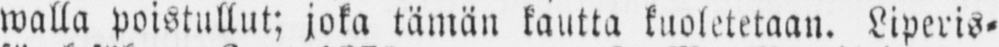walla poistullut; joka tämän kautta kuoletetaan. Liperis-
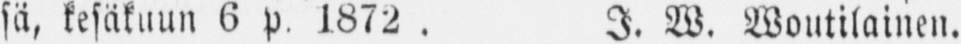sä, kesäkuun 6 p. 1872 . I. W. Woutilainen.
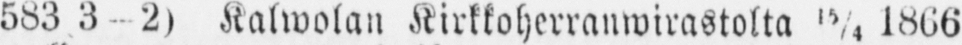583 (3-2) Kalwolan Kirkkoherranwirastolta 15/4 1866
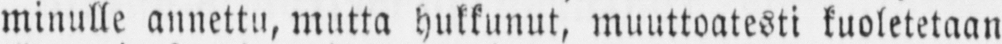minulle annettu, mutta hukkunut, muuttoatesti kuoletetaan
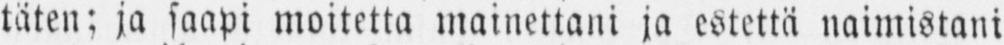täten; ja saapi moitetta mainettani ja estettä naimistani
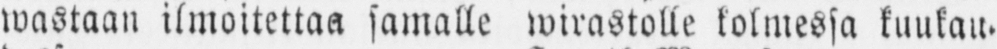wastaan ilmoitettaa samalle wirastolle kolmessa kaukaa,
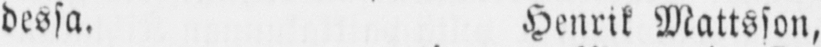dessa. Henrik Mattsson,
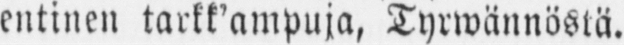entinen tarkk'ampuja, Tyrwännöstä.
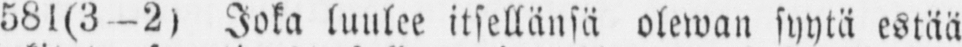581(3-2) Joka luulee itsellänsä olewan syytä estää
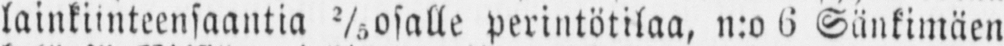lainkiinteensaantia perintötilaa, n:o 6 Sänkimäen
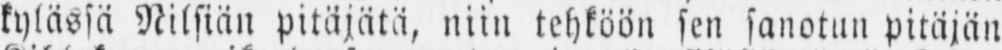kylässä Nilsiän pitäjätä, niin tehköön sen sanotun pitäjän
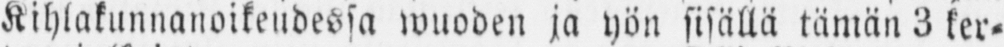kihlakunnanoikeudessa wuoden ja yön sisällä tämän 3 ker-
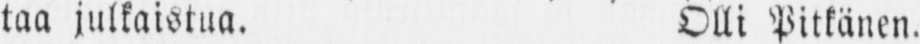taa julkaistua. Olli Pitkänen.
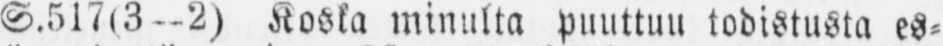S.517(3—2) Koska minulta puuttuu todistusta es-
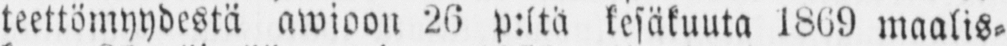teettömyydestä awioon 26 p:ltä kesäkuuta 1869 maalis-
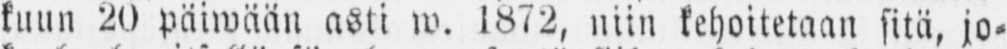kuun 20 päiwään asti w. 1872, niin kehoitetaan sitä, jo-
